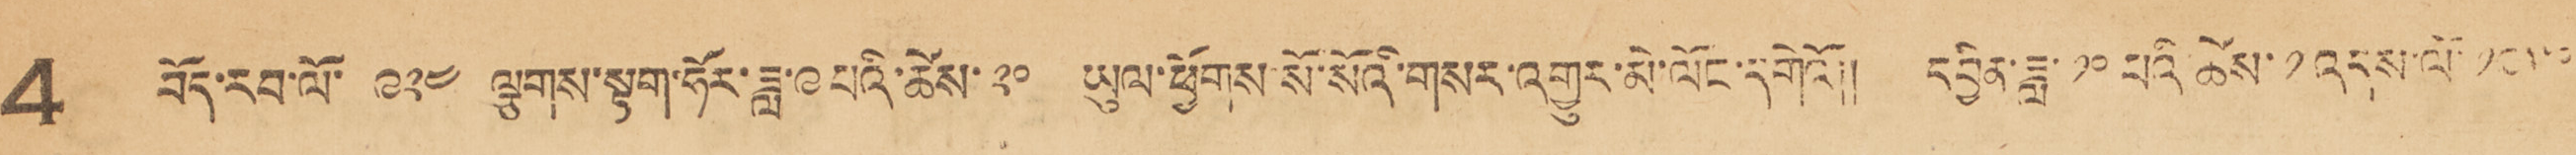4 བོད་རབ་ལོ་ ༩༢༤ ལྕགས་སྟག་ཧོར་ཟླ་ ༩ པའི་ཚེས་ ༢༠ ཡུལ་ཕྱོགས་སོ་སོའི་གསར་འགྱུར་མེ་ལོང་དགེའོ།། དབྱིན་ཟླ་ ༡༠ ཚེས་ ༡ འདས་ལོ་ ༡༩༥༠
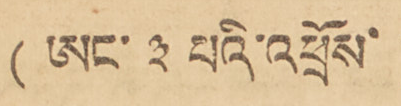( ཨང་ ༣ པའི་འཕྲོས་ )
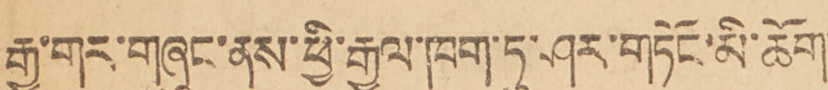རྒྱ་གར་གཞུང་ནས་ཕྱི་རྒྱལ་ཁག་ཏུ་ཤར་གཏོང་མི་ཆོག་
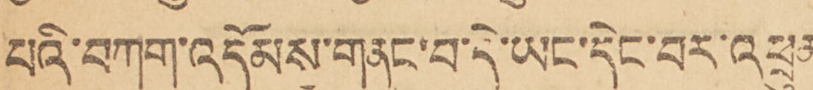པའི་བཀག་འདོམས་གནང་བ་དེ་ཡང་དེང་བར་འཕྲུན་
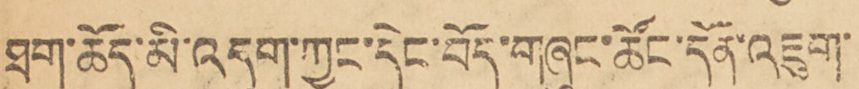ཐག་ཆོད་མི་འདུག་ཀྱང་དེང་བོད་གཞུང་ཚོང་དོན་འཇུག་
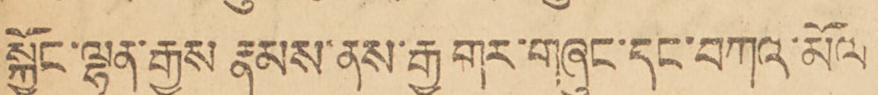སྐྱོང་ལྷན་རྒྱས རྣམས་ནས་རྒྱ གར་གཞུང་དང་བཀའ་མོལ
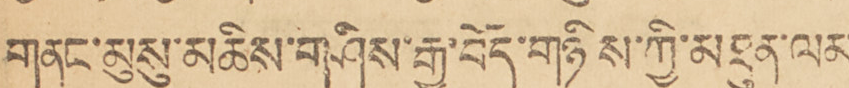གནང་མུསུ་མཆིས་གཤིས་རྒྱ་བོད་གཉིས་ཀྱི་མཐུན་ལམ་
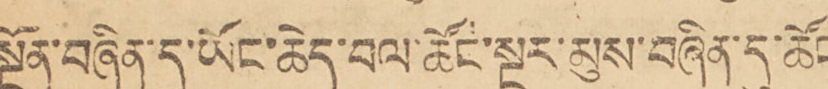སྔོན་བཞིན་དུ་ཡོང་ཆེད་བལ་ཚོང་སྔར་མུས་བཞིན་དུ་ཚོང་
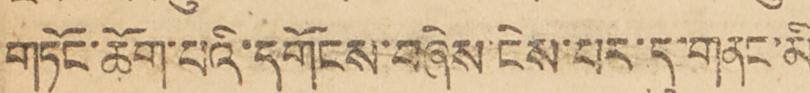གཏོང་ཆོག་པའི་དགོངས་བཞེས་ངེས་པར་དུ་གནང་མི་
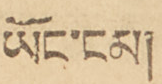ཡོང་ངམ།
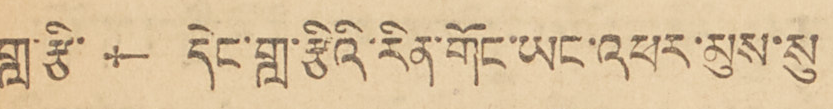གླ་རྩི་ † དེང་གླ་རྩིཨའི་རིན་གོང་ཡང་འཕར་མུས་སུ་
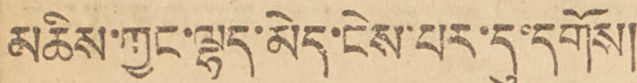མཆིས་ཀྱང་ལྷད་མེད་ངེས་པར་དུ་དགོས།
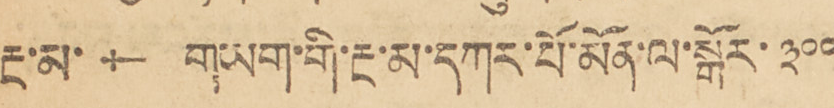རྔ་མ་ † གཡག་གི་རྔ་མ་དཀར་པོ་མོན་ལ་སྒོས་ ༣༠༠
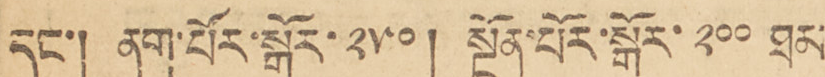དང་། ནག་པོར་སྒོར་ ༢༥༠། སྔོན་པོར་སྒོར་ ༢༠༠ ཐམ་
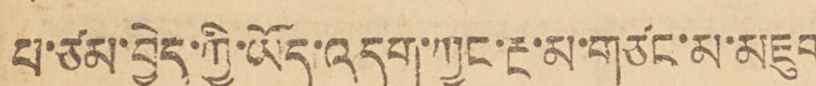པ་ཙམ་བྱེད་ཀྱི་ཡོད་འདུག་ཀྱང་རྔ་མ་གཙང་མ་འཇུག་
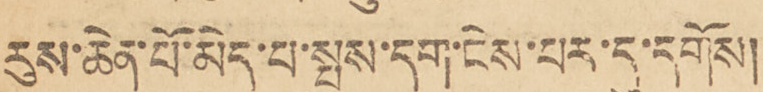རུས་ཆེན་པོ་མེད་པ་སྤུས་དག་ངེས་པར་དུ་དགོས།
